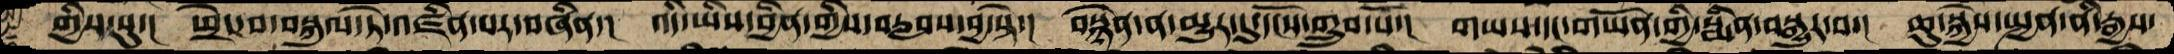གྱིས་སུ་།  ཕྲེང་བ་བསྐུལ་ཏེ་འཛིན་པར་བཞིན་།  འདི་ཡིས་བྱིན་གྱིས་བརླབས་བྱ་སྟེ་།  བསྙེན་ན་མྱུར་དུ་དངོས་གྲུབ་སོ་།  གཡས་དང་གཡོན་གྱི་སྨིན་བསྒྱུར་བ་།  ཆུ་སྐྱེས་སྤྱན་ནི་རྒྱས་
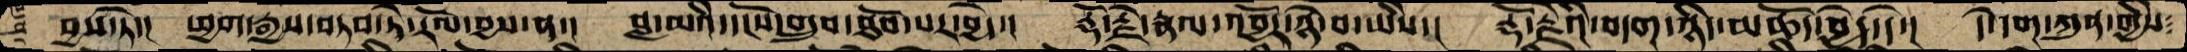བྱས་ཏེ་།  ཕྱག་རྒྱས་བཏབ་ཏེ་རོལ་བྱས་ན་།  བླ་མའི་དངོས་གྲུབ་ཐོབ་པར་བྱེད་།  རྡོ་རྗེ་རྣལ་འབྱོར་ཉེ་བ་ཡིས་།  རྡོ་རྗེའི་བདག་ཉིད་མཆོད་བྱེད་དེ་།  དེ་དག་ཀུན་གྱིས་
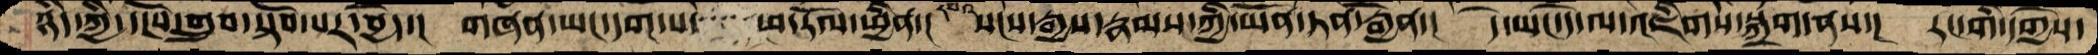ཉིད་ཀྱི་དངོས་གྲུབ་སྟོབ་པར་བྱེད་། གཞན་ཡང་དག་པ་་་་ཕ་རོལ་ཕྱིན་། སངས་རྒྱས་རྣམས་ཀྱི་ཡོན་ཏན་རྒྱན་། དེ་ཡང་དེ་ལ་འཇིགས་སྐྲག་ནས་། རང་གི་དགྱེས་
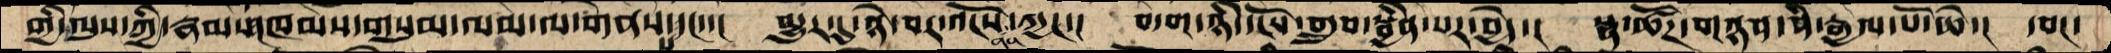གྱི་ལུས་ཀྱི་རྣམས།ཁམས་གསུམ་ལམ་ལ་གནས་པ་དང་་། མྱུར་དུ་ཉེ་བར་འོངས་ནས་ཀྱང་། བདག་ཉིད་དངོས་གྲུབ་སྦྱིན་པར་བྱེད་། སྣ་ཚོཌ་གཉན་ནི་རྒྱལ་པོ་ཆེ་། དབང་
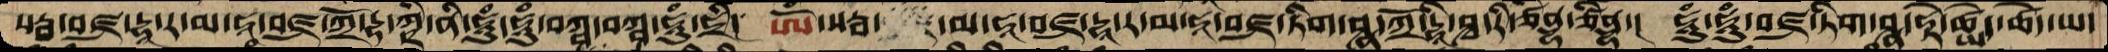སརྦ་བཛྲ་དྷཱ་ར་མ་ཧཱ་བཛྲ་ཀྲོ་དྷ་ཀྵི་ནི་ཧཱུཾ་ཧཱུཾ་བཀྵ་བཀྵ་ཧཱུཾ་ཧྲི། ཨོཾ་སརྦ་མ་ཧཱ་བཛྲ་དྷཱ་ར་མ་ཧཱ་བཛྲ་ཏིག་ཤྣ་ཀྲོ་དྷཱི་ཤྭ་རི་ཙིནྡྷ་ཙིནྡྷ་། ཧཱུཾ་ཧཱུཾ་བཛྲ་ཏིག་ཤྣ་ཧྟེ་ཚྱེད་ཚེད་ཡ་
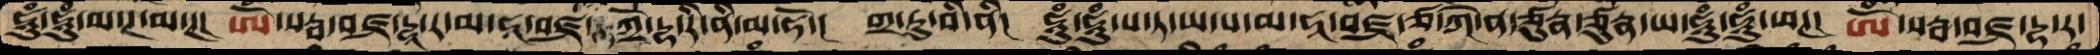ཧཱུཾ་ཧཱུཾ་མ་ཊ་མ་ཊ། ཨོཾ་སརྦ་བཛྲ་དྷཱ་ར་མ་ཧཱ་ཀྲོ་དྷ་རི་ནི་མ་ཧོ་། གྲ་ཏུ་བི་ནི། ཧཱུཾ་ཧཱུཾ་པ་ཏ་ཡ་པ་མ་ཧཱ་བཛྲ་ཙ་ཀེ་ན་ཙུརྣ་ཙུརྣ་ཧཱུཾ་ཧཱུཾ་ཕཊ། ཨོཾ་སརྦ་བཛྲ་དྷ་ར་
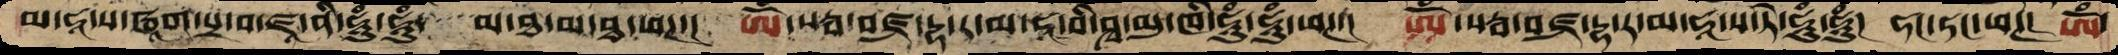མ་ཧཱ་ས་ཝཱག་པྲ་བ་ཛཱ་ནི་ཧཱུཾ་ཧཱུཾ་ མ་ཐ་མ་ཐ་ཕཊ་། ཨོཾ་སརྦ་བཛྲ་དྷ་ར་མ་ཧཱ་བི་ཤྭ་མུ་ཁི་ཧཱུཾ་ཧཱུཾ་ཕཊ་། ཨོཾ་སརྦ་བཛྲ་དྷ་ར་མ་ཧཱ་པ་ཏེ་ཧཱུཾ་ཧཱུཾ། ཧང་ཧང་ཕཊ། ཨོཾ་
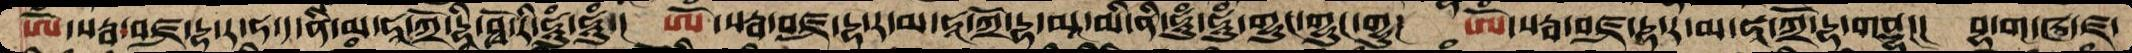ཨོཾ་སརྦ་བཛྲ་དྷ་ར་ཧ་ད་ནི་མ་ཧཱ་ཀྲོ་དྷཱི་ཤྭོ་རི་ཧཱུཾ་ཧཱུཾ་། ཨོཾ་སརྦ་བཛྲ་དྷ་ར་མ་ཧཱ་ཀྲོ་དྷ་མཱ་མི་ནི་ཧཱུཾ་ཧཱུཾ་གྷུང་གྷུང་གྷུ། ཨོཾ་སརྦ་བཛྲ་དྷ་ར་མ་ཧཱ་ཀྲོ་དྷ་གནྡྷ།། བྷ་ག་ཝ་ཛ་
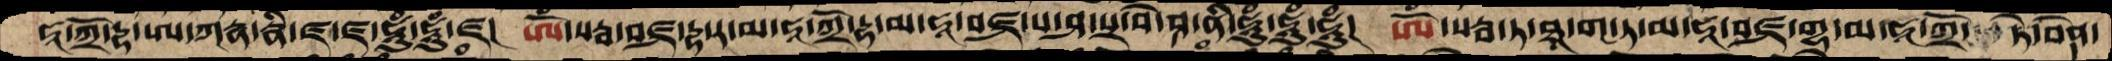ཧཱ་ཀྲོ་དྷ་ཨ་ཀརྣ་རྣི་ཛ་ཛ་ཧཱུཾ་ཧཱུཾ་ཛ། ཨོཾ་སརྦ་བཛྲ་དྷ་ར་མ་ཧཱ་ཀྲོ་དྷ་མ་ཧཱ་བཛྲ་པ་ཤ་པྲ་བེ་ཤ་ནི་ཧཱུཾ་ཧཱུཾ་ཧཱུཾ། ཨོཾ་སརྦ་ཏ་ཐཱ་ག་ཏ་མ་ཧཱ་བཛྲ་གྷ་མ་ཧཱ་ཀྲོ་ཏེ་བེདན་
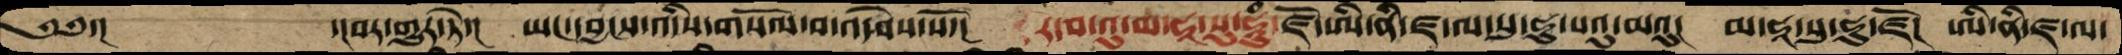༄༅་།   ་།བར་གྱུར་ཏེ་། ཡང་དབྱངས་འདིས་གསོལ་བ་འདེབས་སོ་། ར་བ་འུ་མ་ཧཱ་སུ་ཧཱུཾ་ཛོཨི་ནི་ཛ་ལ་སུ་ཧུ་པའུ་མའུ། མ་ཧཱ་སུ་ཧུ་ཛོ། ཨི་ནི་ཛ་ལ་
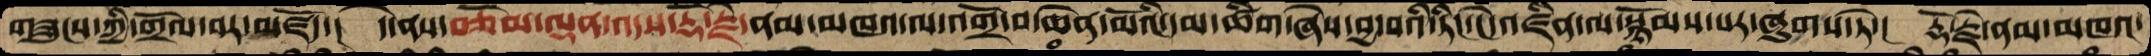གཟུངས་ཀྱི་གྲོལ་བར་མཛོད་། དེ་ནས་བཅོམ་ལྡན་འདས་རྡོ་རྗེ་ནམ་མཁའ་ལ་འགྲོ་བ་ཆེན་མོའི་དམ་ཚིག་ཞེས་བྱ་བའི་ཏིང་ངེ་འཛིན་ལ་སྙོམས་པར་ཞུགས་ཏེ་། རྡོ་རྗེ་ནམ་མཁའ་
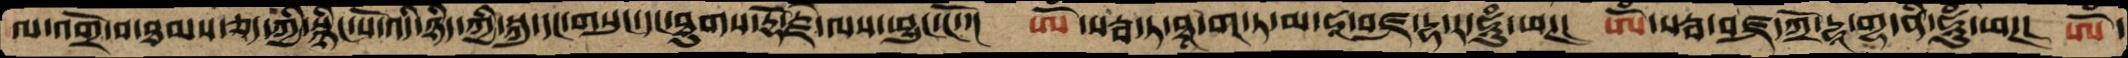ལ་འགྲོ་བ་ཐམས་ཅད་ཀྱི་སྙིང་པོ་འདི་ཉིད་ཀྱི་སྐུ་དང་གསུང་དང་ཐུགས་རྡོ་རྗེ་ལས་ཕྱུང་ངོ་་། ཨོཾ་སརྦ་ཏ་ཐཱ་ག་ཏ་མ་ཧཱ་བཛྲ་དྷ་ར་ཧཱུཾ་ཕཊ། ཨོཾ་སརྦ་བཛྲ་ཀྲོ་དྷཱ་གྷ་ནི་ཧཱུཾ་ཕཊ། ཨོཾ་
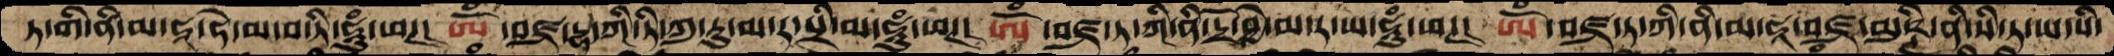ཏ་གི་ནི་མ་ཧཱ་ཧེ་མ་བ་ཏི་ཧཱུཾ་ཕཊ། ཨོཾ་བཛྲ་དྷ་ཀི་ཏི་ཀུ་རུ་མ་ར་པྲི་མ་ཧཱུཾ་ཕཊ། ཨོཾ་བཛྲ་ཏ་ཀི་དྲོ་བྱེ་མ་ར་ཡ་ཧཱུཾ་ཕཊ། ཨོཾ་བཛྲ་ཏ་ཀི་ནི་མ་ཧཱ་བཛྲ་མུཥྚི་ནི་སི་ཏ་ཡ་སི་
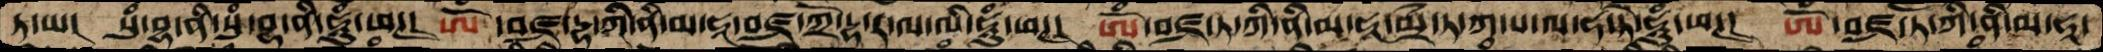ཏ་ཡ། སུཾ་བྷ་ནི་སུཾ་བྷ་ནི་ཧཱུཾ་ཕཊ། ཨོཾ་བཛྲ་དྷ་ཀི་ནི་མ་ཧཱ་བཛྲ་ཀྲོ་དྷ་ར་ལ་ལི་ཧཱུཾ་ཕཊ། ཨོཾ་བཛྲ་ཏ་ཀི་ནི་མ་ཧཱ་མྲི་ཏ་ཀྭ་པ་ལ་ཧ་ཏེ་ཧཱུཾ་ཕཊ། ཨོཾ་བཛྲ་ཏོ་ཀི་ནི་མ་ཧཱ་
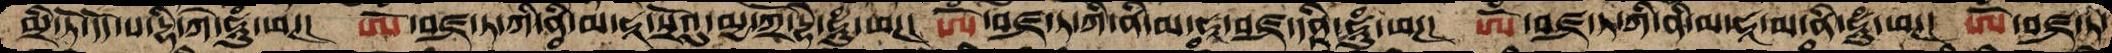མྲི་ཏོ་དོད་པ་དྷི་ཀེ་ཧཱུཾ་ཕཊ། ཨོཾ་བཛྲ་ཏ་ཀི་ནྭི་མ་ཧཱ་སྲོའུ་མྱ་ཀྲོ་དྷི་ཧཱུཾ་ཕཊ། ཨོཾ་བཛྲ་ཏ་ཀི་ནི་མ་ཧཱ་བཛྲ་དནྟི་ཧཱུཾ་ཕཊ། ཨོཾ་བཛྲ་ཏ་ཀི་ནི་མ་ཧཱ་མ་ནི་ཧཱུཾ་ཕཊ། ཨོཾ་བཛྲ་ཏེ་
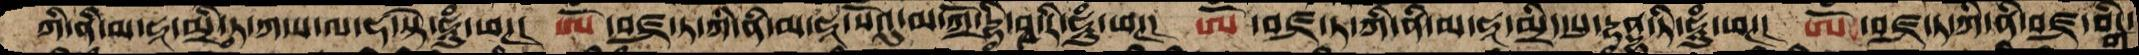ཀི་ནི་མ་ཧཱ་མྲི་ཏ་ཀ་ས་ལ་ཧ་སྟེ་ཧཱུཾ་ཕཊ། ཨོཾ་བཛྲ་ཏ་ཀི་ནི་མ་ཧཱ་སོའུ་མ་ཀྲོ་དྷི་ཤྭ་རི་ཧཱུཾ་ཕཊ། ཨོཾ་བཛྲ་ཏ་ཀི་ནི་མ་ཧཱ་མྲིད་སུ་དྷནྡྷ་ཏི་ཧཱུཾ་ཕཊ། ཨོཾ་བཛྲ་ཏ་ཀི་ནི་བཛྲ་བིངྒ་
